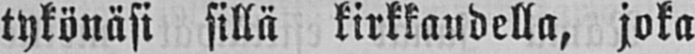tykönäsi sillä kirkkaudella, joka
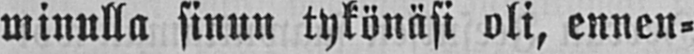minulla sinun tykönäsi oli, ennen-
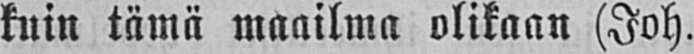kuin tämä maailma olikaan (Joh.
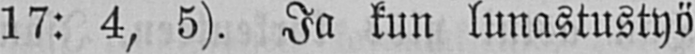17: 4, 5). Ja kuu lunastustyö
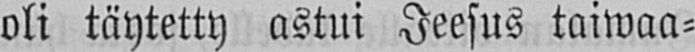oli täytetty astui Jeesus taiwaa-
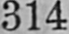314
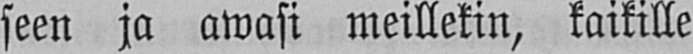seen ja awasi meillekin, kaikille
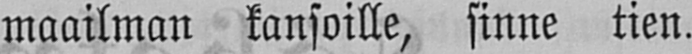maailman kansoille, sinne tien.
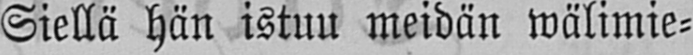Siellä hän istuu meidän wälimie-
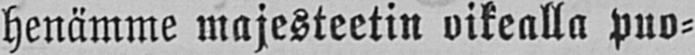henämme majesteetin oikealla puo-
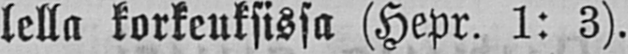lella korkeuksissa (Hepr. 1: 3).
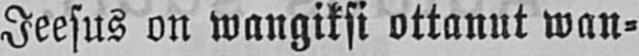Jeesus on wangiksi ottanut wan-
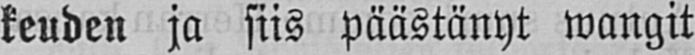keuden ja siis päästänyt wangit
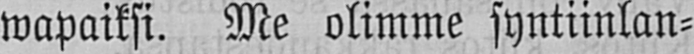wapaiksi. Me olimme syntiinlan-
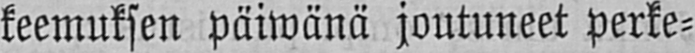keemuksen päiwänä joutuneet perke-
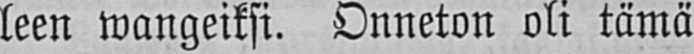leen wangeiksi. Onneton oli tämä
